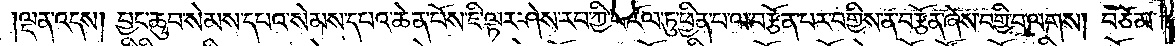ལྡན་འདས། བྱང་ཆུབ་སེམས་དཔའ་སེམས་དཔའ་ཆེན་པོས་ཇི་ལྟར་ཤེས་རབ་ཀྱི་ཕ་རོལ་ཏུ་ཕྱིན་པ་ལ་བརྩོན་པར་བགྱིས་ན་བརྩོན་ཞེས་བགྱི་བ་ལགས། བཅོམ་
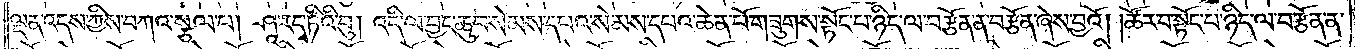ལྡན་འདས་ཀྱིས་བཀའ་སྩལ་པ། ཤཱ་རདྭ་ཏིའི་བུ། འདི་ལ་བྱང་ཆུབ་སེམས་དཔའ་སེམས་དཔའ་ཆེན་པོ་གཟུགས་སྟོང་པ་ཉིད་ལ་བརྩོན་ན་བརྩོན་ཞེས་བྱའོ། །ཚོར་བ་སྟོང་པ་ཉིད་ལ་བརྩོན་ན་
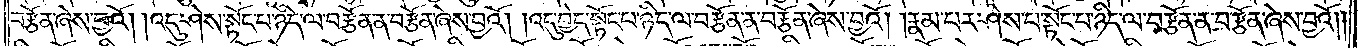བརྩོན་ཞེས་བྱའོ། །འདུ་ཤེས་སྟོང་པ་ཉིད་ལ་བརྩོན་ན་བརྩོན་ཞེས་བྱའོ། །འདུ་བྱེད་སྟོང་པ་ཉིད་ལ་བརྩོན་ན་བརྩོན་ཞེས་བྱའོ། །རྣམ་པར་ཤེས་པ་སྟོང་པ་ཉིད་ལ་བརྩོན་ན་བརྩོན་ཞེས་བྱའོ༎
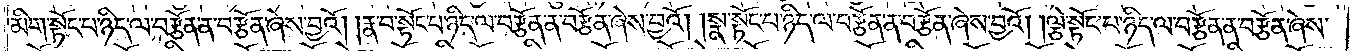མིག་སྟོང་པ་ཉིད་ལ་བརྩོན་ན་བརྩོན་ཞེས་བྱའོ། །རྣ་བ་སྟོང་པ་ཉིད་ལ་བརྩོན་ན་བརྩོན་ཞེས་བྱའོ། །སྣ་སྟོང་པ་ཉིད་ལ་བརྩོན་ན་བརྩོན་ཞེས་བྱའོ། །ལྕེ་སྟོང་པ་ཉིད་ལ་བརྩོན་ན་བརྩོན་ཞེས་
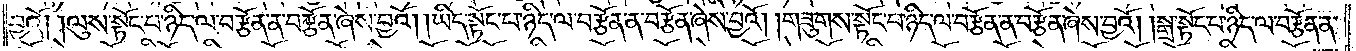བྱའོ། །ལུས་སྟོང་པ་ཉིད་ལ་བརྩོན་ན་བརྩོན་ཞེས་བྱའོ། །ཡིད་སྟོང་པ་ཉིད་ལ་བརྩོན་ན་བརྩོན་ཞེས་བྱའོ། །གཟུགས་སྟོང་པ་ཉིད་ལ་བརྩོན་ན་བརྩོན་ཞེས་བྱའོ། །སྒྲ་སྟོང་པ་ཉིད་ལ་བརྩོན་ན་
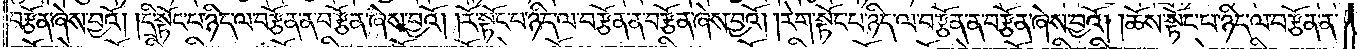བརྩོན་ཞེས་བྱའོ། །དྲི་སྟོང་པ་ཉིད་ལ་བརྩོན་ན་བརྩོན་ཞེས་བྱའོ། །རོ་སྟོང་པ་ཉིད་ལ་བརྩོན་ན་བརྩོན་ཞེས་བྱའོ། །རེག་སྟོང་པ་ཉིད་ལ་བརྩོན་ན་བརྩོན་ཞེས་བྱའོ། །ཆོས་སྟོང་པ་ཉིད་ལ་བརྩོན་ན་
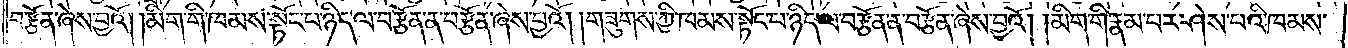བརྩོན་ཞེས་བྱའོ། །མིག་གི་ཁམས་སྟོང་པ་ཉིད་ལ་བརྩོན་ན་བརྩོན་ཞེས་བྱའོ། །གཟུགས་ཀྱི་ཁམས་སྟོང་པ་ཉིད་ལ་བརྩོན་ན་བརྩོན་ཞེས་བྱའོ། །མིག་གི་རྣམ་པར་ཤེས་པའི་ཁམས་
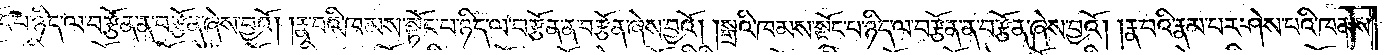སྟོང་པ་ཉིད་ལ་བརྩོན་ན་བརྩོན་ཞེས་བྱའོ། །རྣམ་བའི་ཁམས་སྟོང་པ་ཉིད་ལ་བརྩོན་ན་བརྩོན་ཞེས་བྱའོ། །སྒྲའི་ཁམས་སྟོང་པ་ཉིད་ལ་བརྩོན་ན་བརྩོན་ཞེས་བྱའོ། །རྣ་བའི་རྣམ་པར་ཤེས་པའི་ཁམས་
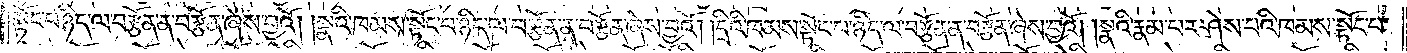སྟོང་པ་ཉིད་ལ་བརྩོན་ན་བརྩོན་ཞེས་བྱའོ། །སྣའི་ཁམས་སྟོང་པ་ཉིད་ལ་བརྩོན་ན་བརྩོན་ཞེས་བྱའོ། །དྲིའི་ཁམ་སྟོང་པ་ཉིད་ལ་བརྩོན་ན་བརྩོན་ཞེས་བྱའོ། །སྣའི་རྣམ་པར་ཤེས་པའི་ཁམས་སྟོང་པ་
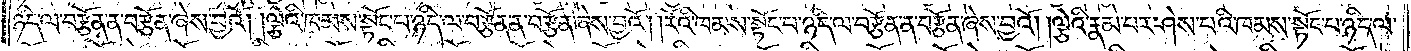ཉིད་ལ་བརྩོན་ན་བརྩོན་ཞེས་བྱའོ། །ལྕེའི་ཁམས་སྟོང་པ་ཉིད་ལ་བརྩོན་ན་བརྩོན་ཞེས་བྱའོ། །རོའི་ཁམས་སྟོང་པ་ཉིད་ལ་བརྩོན་ན་བརྩོན་ཞེས་བྱའོ། །ལྕེའི་རྣམ་པར་ཤེས་པའི་ཁམས་སྟོང་པ་ཉིད་ལ་
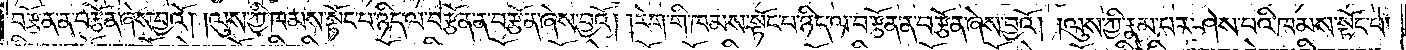བརྩོན་ན་བརྩོན་ཞེས་བྱའོ། །ལུས་ཀྱི་ཁམས་སྟོང་བ་ཉིད་ལ་བརྩོན་ན་བརྩོན་ཞེས་བྱའོ། །རེག་གི་ཁམས་སྟོང་པ་ཉིད་ལ་བརྩོན་ན་བརྩོན་ཞེས་བྱའོ། །ལུས་ཀྱི་རྣམ་པར་ཤེས་པའི་ཁམས་སྟོང་པ་
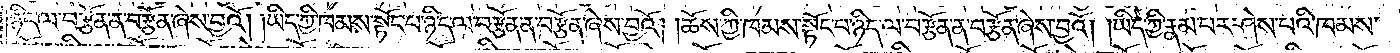ཉིད་ལ་བརྩོན་ན་བརྩོན་ཞེས་བྱའོ། །ཡིད་ཀྱི་ཁམས་སྟོང་པ་ཉིད་ལ་བརྩོན་ན་བརྩོན་ཞེས་བྱའོ། །ཆོས་ཀྱི་ཁམས་སྟོང་པ་ཉིད་ལ་བརྩོན་ན་བརྩོན་ཞེས་བྱའོ། །ཡིད་ཀྱི་རྣམ་པར་ཤེས་པའི་ཁམས་
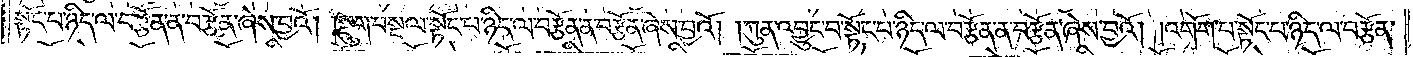སྟོང་པ་ཉིད་ལ་བརྩོན་ན་བརྩོན་ཞེས་བྱའོ། །སྡུག་བསྔལ་སྟོང་པ་ཉིད་ལ་བརྩོན་ན་བརྩོན་ཞེས་བྱའོ། །ཀུན་འབྱུང་བ་སྟོང་པ་ཉིད་ལ་བརྩོན་ན་བརྩོན་ཞེས་བྱའོ། །འགོག་པ་སྟོང་པ་ཉིད་ལ་བརྩོན་
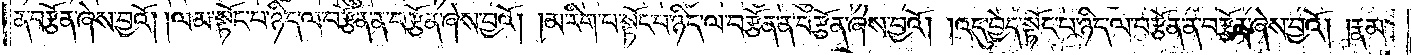ན་བརྩོན་ཞེས་བྱའོ། །ལམ་སྟོང་པ་ཉིད་ལ་བརྩོན་ན་བརྩོན་ཞེས་བྱའོ། །མ་རིག་པ་སྟོང་པ་ཉིད་ལ་བརྩོན་ན་བརྩོན་ཞེས་བྱའོ། །འདུ་བྱེད་སྟོང་པ་ཉིད་ལ་བརྩོན་ན་བརྩོན་ཞེས་བྱའོ། །རྣམ་
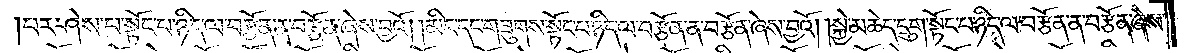པར་ཤེས་པ་སྟོང་པ་ཉིད་ལ་བརྩོན་ན་བརྩོན་ཞེས་བྱའོ། །མིང་དང་གཟུགས་སྟོང་པ་ཉིད་ལ་བརྩོན་ན་བརྩོན་ཞེས་བྱའོ། །སྐྱེ་མཆེད་དྲུག་སྟོང་པ་ཉིད་ལ་བརྩོན་ན་བརྩོན་ཞེས་
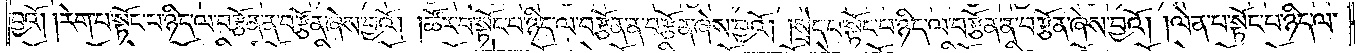བྱའོ། །རེག་པ་སྟོང་པ་ཉིད་ལ་བརྩོན་ན་བརྩོན་ཞེས་བྱའོ། །ཚོར་བ་སྟོང་པ་ཉིད་ལ་བརྩོན་ན་བརྩོན་ཞེས་བྱའོ། །སྲེད་པ་སྟོང་པ་ཉིད་ལ་བརྩོན་ན་བརྩོན་ཞེས་བྱའོ། །ལེན་པ་སྟོང་པ་ཉིད་ལ་
